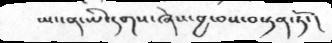ཡང་ན་ཡི་དགས་ཞེསབྱ་བས་བསྟན་ཏོ་།
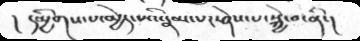། དམྱིགས་པ་མྱེད་པའི་རྣམ་པར་ཤེས་པ་སྐྱེ་བ་ནི་།
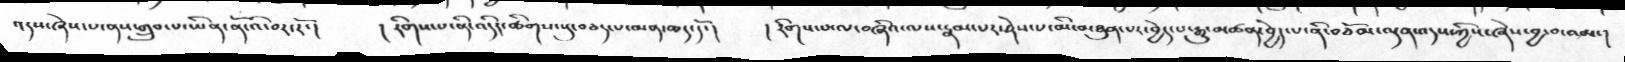འདས་ཞེས་པ་ནས་གྲུབ་པ་ཡིན་འི་བར་རོ་།  ། རིགས་པ་ནི་འདིར་ཚིགས་སུ་བཅད་པ་མན་ཆད་དོ་།   །རིགས་པ་ལ་བཞིའ་ལས་རྣམ་པར་ཤེས་པ་མི་མཐུན་པར་བྱེད་པ་རྒྱུ་མཚན་བྱེད་པ་ནི་བཅོམ་ལྡན་འདས་ཀྱིས་ཞེས་བྱ་བ་འམ་།
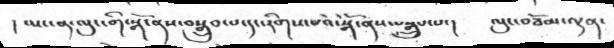། ཡང་ན་ལུང་གི་སྒོ་ནས་བསྒྲུབ་པ་དང་རིགས་པའི་སྒོ་ནས་བསྒྲུབ་པ་།  ལུང་བཅོམ་ལྡན་
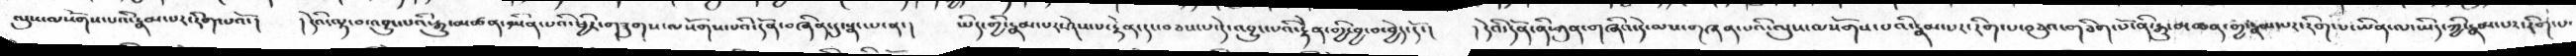ལུང་ལསོགས་པའི་རྣམ་པར་རིག་པའོ་།  །དེའི་ལྟ་བ་འབྱུང་པའི་རྒྱུ་མཚན་ཡིན་པའི་ཕྱིར་གཟུགས་ལསོགས་པའི་དོན་བཞིན་དུ་སྣང་པ་ན་།  ཡིད་གྱི་རྣམ་པར་ཤེས་པས་རྟེན་དང་བཅས་པ་དེ་འབྱུང་པའི་རྟེན་གྱི་བྱ་བ་བྱེད་དོ་།   །དེའི་དོན་ནི་ཀུན་གཞིའ་དེ་ལས་གཞན་པའི་ལུང་ལསོགས་པའི་རྣམ་པར་རིག་པ་བཅུའ་གཅིག་པོ་ནི་རྒྱུ་མཚན་གྱི་རྣམ་པར་རིག་པ་ཡིན་ལ་ཡིད་ཀྱི་རྣམ་པར་རིག་པ་
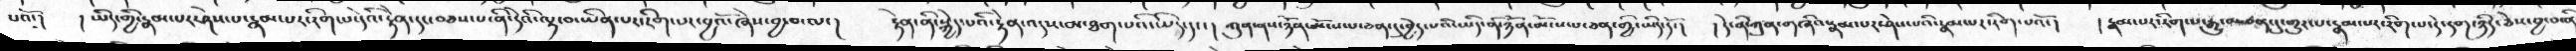པའོ་།  །ཡིད་གྱི་རྣམ་པར་ཤེས་པ་རྣམ་པར་རིག་པ་དེའི་རྟེན་དང་བཅས་པ་ནི་དེའི་ལྟ་བ་ཡིན་པར་རིག་པར་བྱའོ་ཞེས་བྱ་བ་ལ་།   རྟེན་ནི་སྐྱེད་པའི་རྟེན་འདས་མ་ཐག་པའི་ཡིད་དང་།  ཀུན་ནས་ཉོན་མོངས་པ་ཅན་དུ་བྱེད་པའི་ཡིད་ནི་ཉོན་མོངས་པ་ཅན་གྱི་ཡིད་དོ་།  །དེ་ནི་ཀུན་གཞིའ་རྣམ་པར་ཤེས་པའི་རྣམ་པར་རིག་པའོ་།  །རྣམ་པར་རིག་པ་རྒྱུ་མཚན་དུ་གྱུར་པ་རྣམ་པར་རིག་པ་དེ་དག་ཉིད་ཅེས་བྱ་བ་ནི་
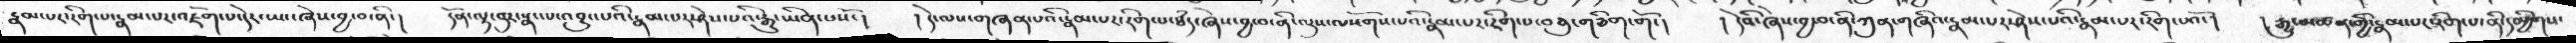རྣམ་པར་རིག་པ་རྣམ་པར་འཇོག་པ་དེར་ཡང་ཞེས་བྱ་བ་ནི་།  དོན་ལྟ་བུར་སྣང་པ་འབྱུང་པའི་རྣམ་ཤེས་པའི་རྒྱུ་ཡིན་པསོ་།  །དེ་ལས་གཞན་པའི་རྣམ་པར་རིག་པ་ཐདཾ་ཞེས་བྱ་བ་ནི་ལུས་ལསོགས་པའི་རྣམ་པར་རིག་པ་བཅུ་གཅིག་གོ་།  །དེའི་ཞེས་བྱ་བ་ནི་ཀུན་གཞིའ་རྣམ་པར་ཤེས་པའི་རྣམ་པར་རིག་པའོ་།   །རྒྱུ་མཚན་གྱི་རྣམ་པར་རིག་པ་ནི་དམྱིགས་
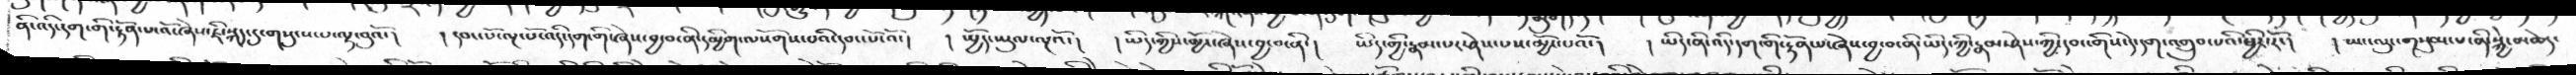ནི་འདི་དག་གི་རྟོན་པ་འོ་ཞེས་ཇི་སྐད་དུ་གསུངས་པ་ལྟ་བུའོ་།  ། དབང་པོ་ལྔ་པོ་འདི་དག་གི་ཞེས་བྱ་བ་ནི་དམྱིག་ལསོགས་པའི་དབང་པོ་འོ་།  ། སྤྱོད་ཡུལ་ལྔའོ་།  །ཡིད་གྱིས་མྱོང་ཞེས་བྱ་བ་ནི་།  ཡིད་གྱི་རྣམ་པར་ཤེས་པས་མྱོང་པའོ་།  ། ཡིད་ནི་འདི་དག་གི་རྟོན་པ་ཞེས་བྱ་བ་ནི་ཡིད་ཀྱི་རྣམ་ཤེས་ཀྱི་དབང་གིས་དེ་དག་འགྲུབ་པའི་ཕྱིར་རོ་།  ། ཡང་ལུང་གསུམ་པ་ནི་སྐྱེ་མཆེད་
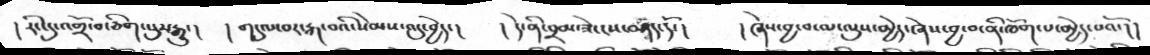། རིང་དུ་འགྲོ་བ་ཅིག་པུར་རྒྱུ་།   །གདུལ་བར་རྐ་བའི་སེམས་འདུ་བྱེད་།   ། དེ་ནི་བྲམ་ཟེ་ངས་བཤད་དོ་།  །ཞེས་བྱ་བ་ལ་ལུས་མྱེད་ཞེས་བྱ་བ་ནི་ཆོག་པ་མྱེད་པའོ་།།
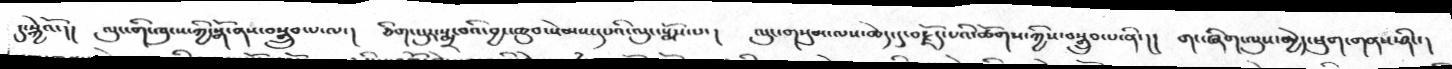དུ་སྐྱེའོ་།།  ལུང་གི་ཁུངས་ཀྱི་སྒོ་ནས་བསྒྲུབ་པ་ལ་།   ཅིག་པུར་སྨྲ་བའི་བྱང་ཆུབ་སེམས་དཔའི་ལུང་སྨོས་པ་།  ལུང་གསུམ་ལས་ཆེད་དུ་བརྗོད་པའི་ཚོགས་ཀྱིས་བསྒྲུབ་པ་ནི་།།  གང་ཞིག་ལུས་མྱེད་ཕུག་གནས་ནི་།
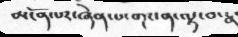མངོན་པར་ཞེན་པ་གང་ན་ལྟ་བ་རྣ
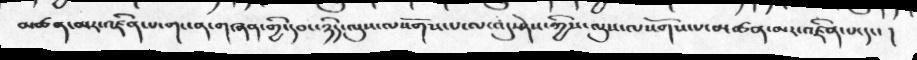མཚན་མར་འཛིན་པ་གང་ན་གཞན་གྱི་དབང་ཉིད་ལུས་ལསོགས་པ་ལ་འདུ་ཤེས་ཀྱིས་ལུས་ལསོགས་པ་མཚན་མར་འཛིན་པ་དང་།
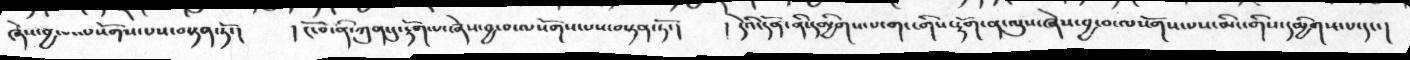ཞེས་བྱ་བ་ལསོགས་པས་བསྟན་ཏོ་།    ། ངོ་བོ་ནི་ཀུན་དུ་རྟོག་པ་ཞེས་བྱ་བ་ལསོགས་པས་བསྟན་ཏོ་།   ། དེའི་དོན་ནི་དམྱིགས་པ་གང་གིས་རྟོག་ན་ལུས་ཞེས་བྱ་བ་ལསོགས་པས་མིང་གིས་དམྱིགས་པ་དང་།
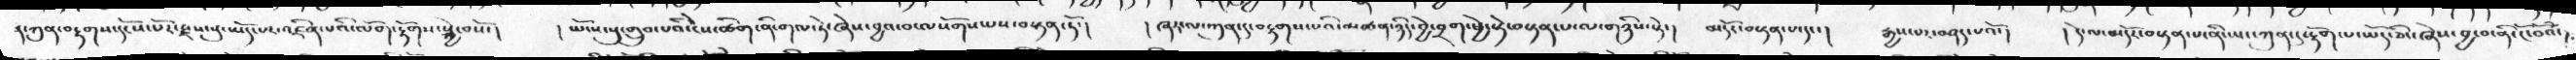ན་ཀུན་བརྟགས་དངོས་པོར་རྫས་སུ་ཡོད་པར་འཛིན་པའི་ལོག་རྟོགས་སྐྱེ་བསོ་།   ། ཡོངས་སུ་གྲུབ་པའི་ངེས་ཚིག་ནི་གལ་ཏེ་ཞེས་བྱའ་བ་ལསོགས་པས་བསྟན་ཏོ་།   ། ཞར་ལ་ཀུན་དུ་བརྟགས་པའི་མཚན་ཉིད་བྱེ་བྲག་ཕྱེ་སྟེ་བསྟན་པ་ལ་གཉིས་སྟེ་།  མདོར་བསྟན་པ་དང་།  རྒྱས་པར་བཤད་པའོ་།  །དེ་ལ་མདོར་བསྟན་པ་ནི་ཡང་ཀུན་དུ་རྟོག་པ་ཡོད་ཅིང་ཞེས་བྱ་བ་ནི་ངོ་བོའ་།
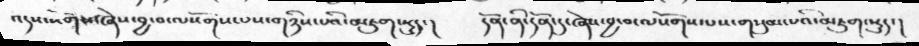འདས་སོགས་ཞེས་བྱ་བ་ལསོགས་པས་གཉིས་པའི་མཇུག་སྡུད་།   དོན་ནི་དོན་དུ་ཞེས་བྱ་བ་ལསོགས་པས་གསུམ་པའི་མཇུག་སྡུད་།
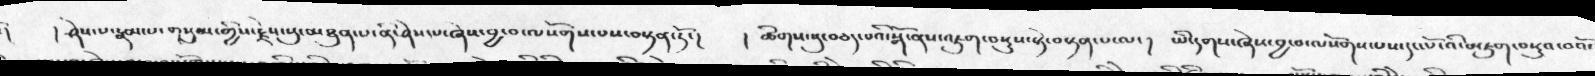།  ། ཤེས་པ་རྣམ་པ་གསུམ་གྱིས་རྗེས་སུ་མཐུན་པ་ནི་ཤེས་པ་ཞེས་བྱ་བ་ལསོགས་པས་བསྟན་ཏོ་།  །ཚིགས་སུ་བཅད་པའི་སྒོ་ནས་འཇུག་བསྡུས་སྟེ་བསྟན་པ་ལ་།  ཡི་དགས་ཞེས་བྱ་བ་ལསོགས་པས་དང་པོ་འི་མཇུག་བསྡུའ་བའོ་
